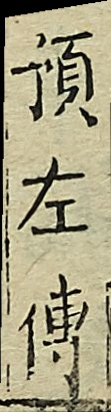預左傳
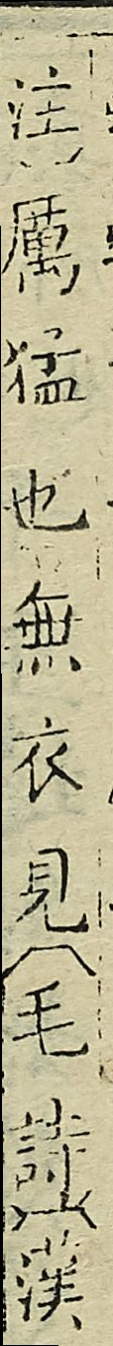注）厲猛也無衣見（毛詩）（漢
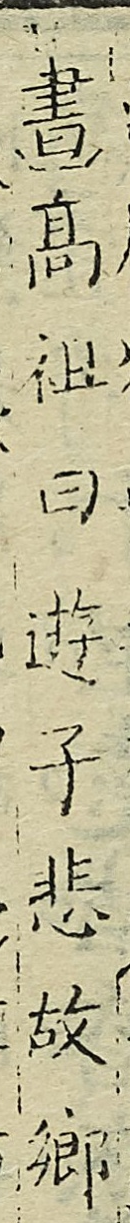書）高祖曰遊子悲故鄉
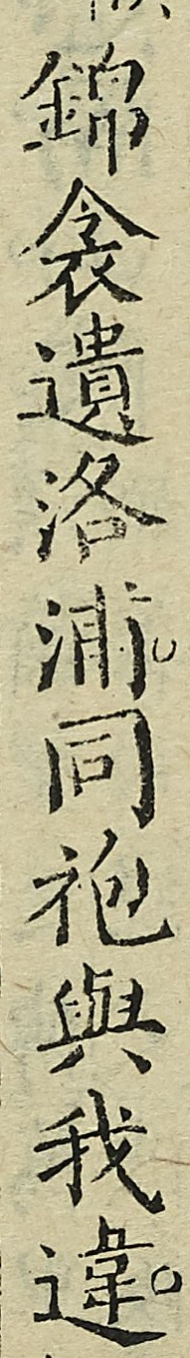錦衾遺洛浦同袍與我違
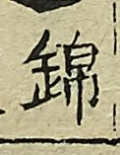錦
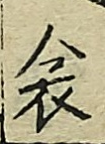衾
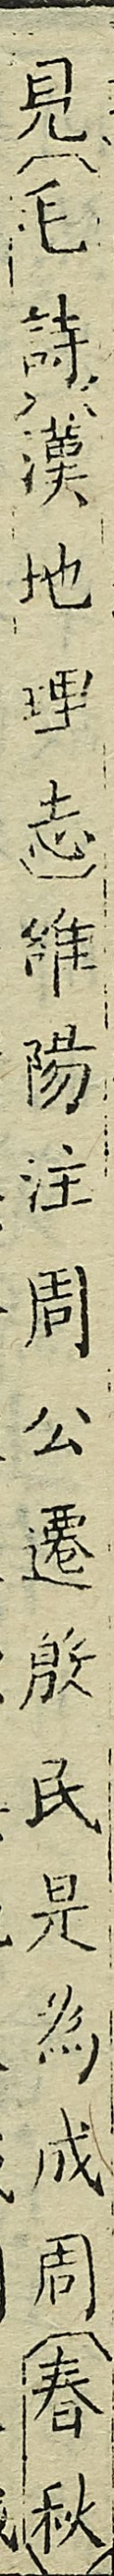見（毛詩）（漢地理志）維陽注周公遷啟民是為成周（春秋）
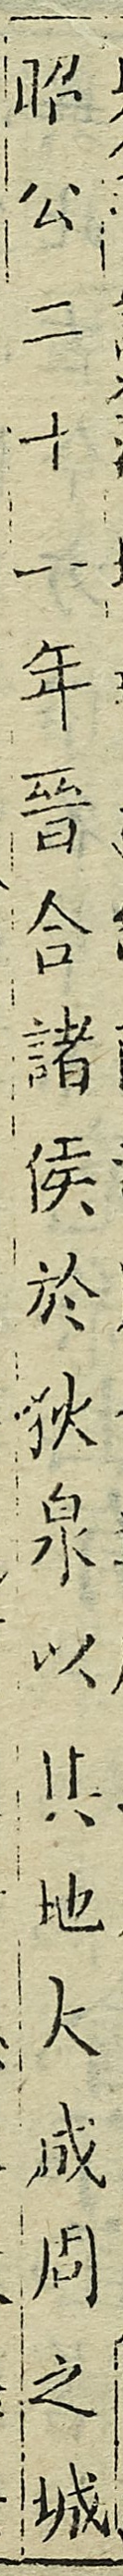昭公二十一年晉合諸侯於狄泉以其地大成周之城
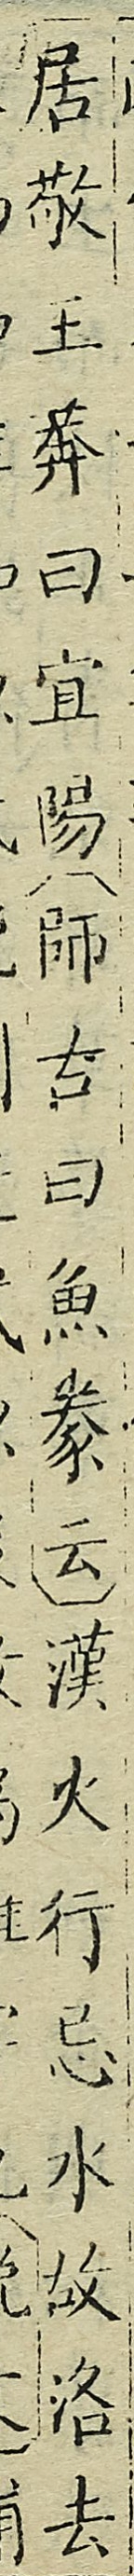居敬王莽曰宜陽（師古曰魚豢云）漢火行忌水故洛去
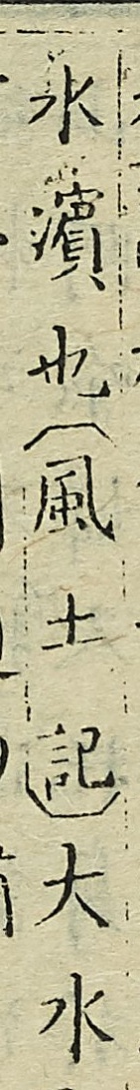水濵也（風土記）大水
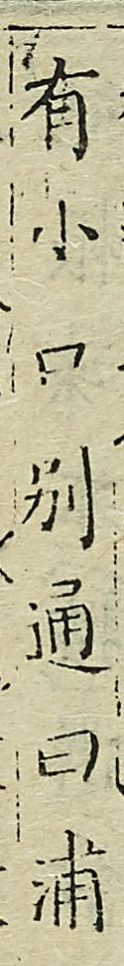有小口別通曰浦
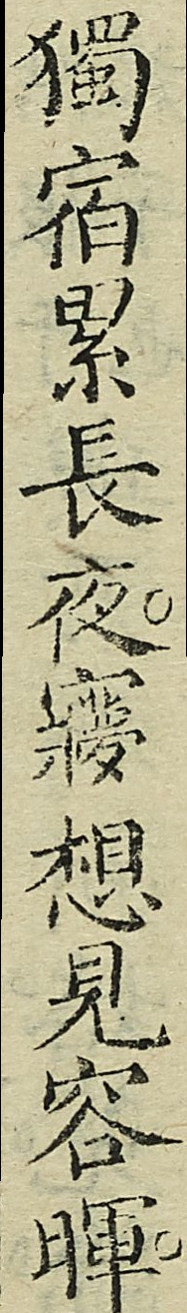獨宿累長夜㝱想見容暉
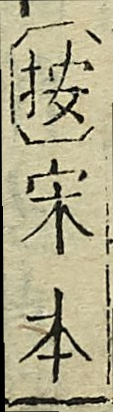（按）宋本
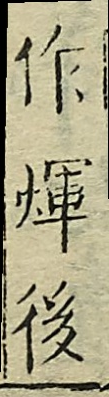作煇後
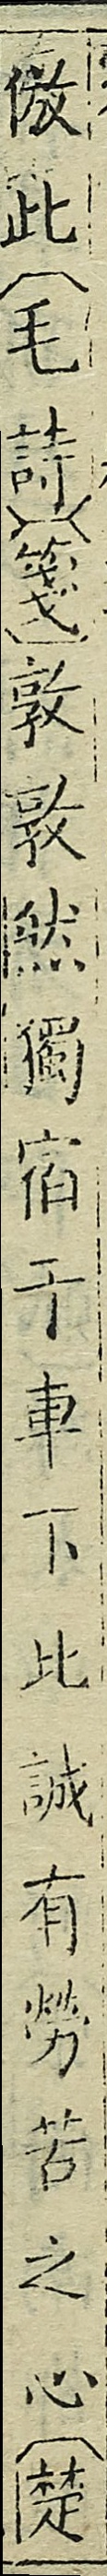倣此（毛詩）（箋）敦敦然獨宿于車下此誠有勞苦之心（楚
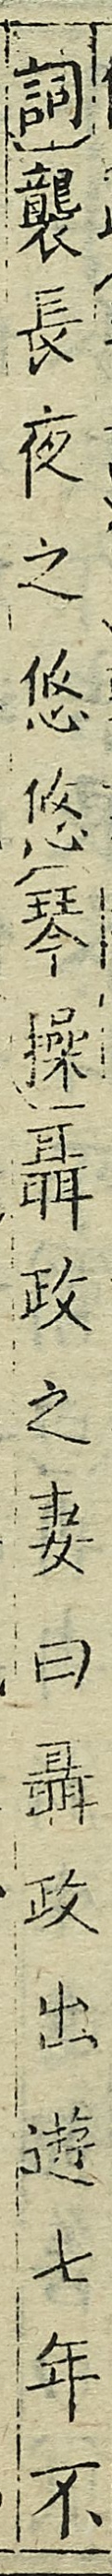詞）襲長夜之悠悠（琴操）聶政之妻曰聶政出遊七年不
